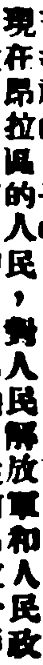現在昂拉區的人民，對人民解放軍和人民政
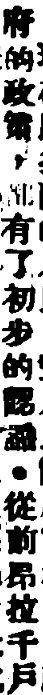府的政策，都有了初步的認識。從前昂拉千戶
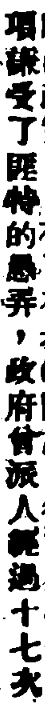項謙受了匪特的愚弄，政府曾派人經過十七次
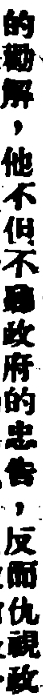的勸解，他不但不聽政府的忠告，反而仇視政
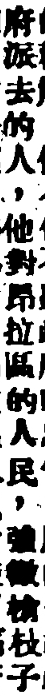府派去的人，他對昂拉區的人民，強徵槍支子
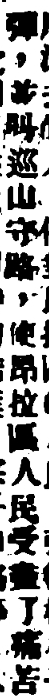彈，並叫巡山守路，使昂拉區人民受盡了痛苦
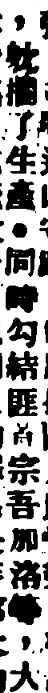，躭擱了生產。同時勾結匪首宗吾加洛等，大
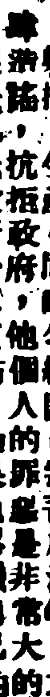肆造謠，抗拒政府，他個人的罪惡是非常大的
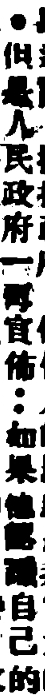。但是人民政府一再宣佈：如果他認識自己的
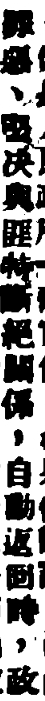罪惡、堅決與匪特斷絕關係，自動返回時，政
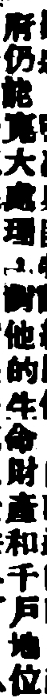府仍能寬大處理，對他的生命財產和千戶地位
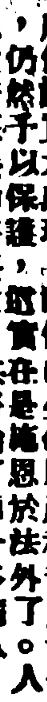，仍然予以保護，這實在是施恩於法外了。人
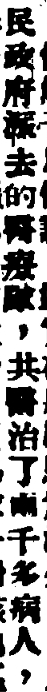民政府派去的醫療隊，共醫治了兩千多病人，
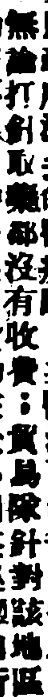無論打針取藥都沒有收費；貿易隊針對該地區
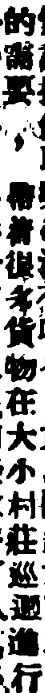的需要 ， 帶着很多貨物在大小村莊巡迴進行
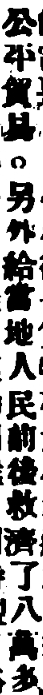公平貿易。另外給當地人民前後救濟了八萬多
